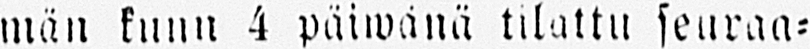män kuun 4 päiwänä tilattu seuraa-
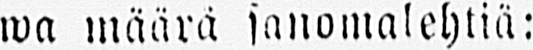wa määrä sanomalehtiä:
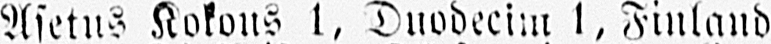Asetus Kokous 1, Duodecim 1, Finland
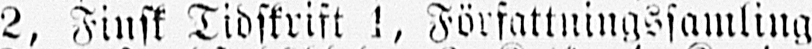2, Finsk Tidskrift 1, Författningssamling
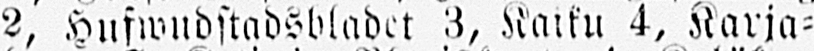2, Hufwudstadsdladet 3, Kaiku 4, Karja-
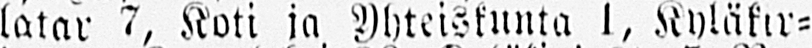latar 7, Koti ja Yhteiskunta 1, Kyläkir-
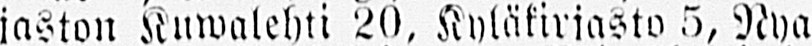jaston Kuwalehti 20, Kyläkirjasto 5, Nya
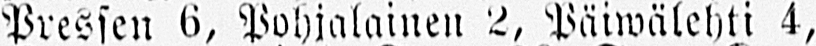Pressen 6, Pohjalainen 2, Päiwälehti 4,
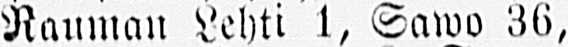Rauman Lehti 1, Sawo 36, Sawo-Kar-
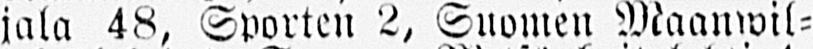jala 48, Sporten 2, Suomen Maanwil-
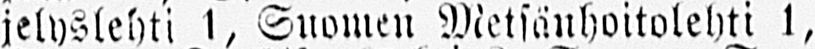jelyslehti 1, Suomen Metsänhoitolehti 1,
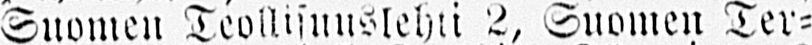Suomen Teollisuuslehti 2, Suomen Ter-
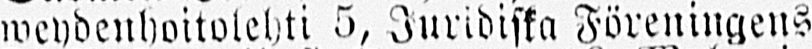weydenhoitolehti 5, Juridiska Föreningens
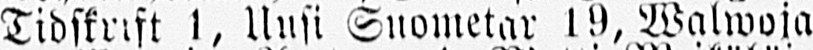Tidskrift 1, Uusi Suometar 19, Walwoja
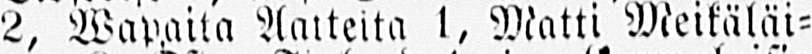2, Wapaita Aatteita 1, Matti Meikäläi-
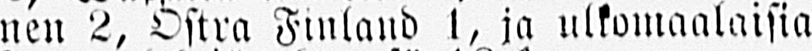nen 2, Östra Finland 1, ja ulkomaalaisia
